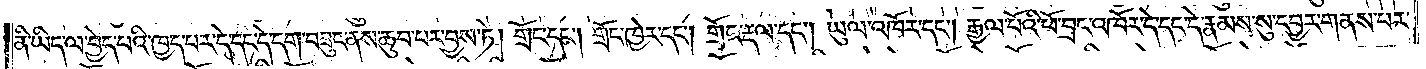ནི་ཡིད་ལ་བྱེད་པའི་ཁྱད་པར་དེ་དང་དེ་དག་བཟུང་ནས་ཆུབ་པར་བྱས་ཏེ། གྲོང་དང༌། གྲོང་ཁྱེར་དང༌། གྲོང་རྡལ་དང༌། ཡུལ་འཁོར་དང༌། རྒྱལ་པོའི་ཕོ་བྲང་འཁོར་དེ་དང་དེ་རྣམས་སུ་དབྱར་གནས་པར་
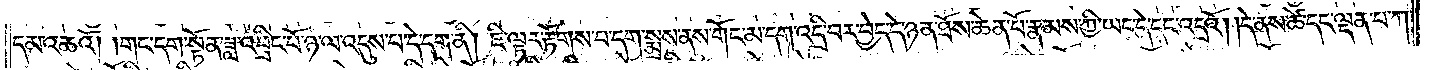དམ་འཆའོ། །གང་དག་སྟོན་ཟླ་འབྲིང་པོ་ཉ་ལ་འདུས་པ་དེ་དག་ནི། ཇི་ལྟར་རྟོགས་པ་དག་སྨྲས་ནས་གོང་མ་དག་འདྲི་བར་བྱེད་དེ་ཉན་ཐོས་ཆེན་པོ་རྣམས་ཀྱི་ཡང་དེ་དང་འདྲའོ། །དེ་ནས་ཚེ་དང་ལྡན་པ་ཀ་
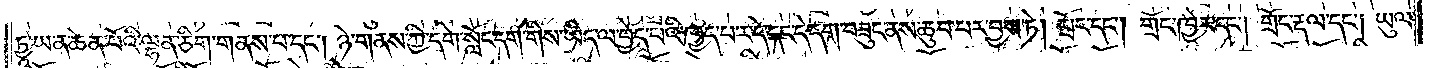ཏྱཱ་ཡ་ན་ཆེན་པོའི་ལྷན་ཅིག་གནས་པ་དང༌། ཉེ་གནས་ཀྱི་དགེ་སློང་དག་གིས་ཡིད་ལ་བྱེད་པའི་ཁྱད་པར་དེ་དང་དེ་དག་བཟུང་ནས་ཆུབ་པར་བྱས་ཏེ། གྲོང་དང༌། གྲོང་ཁྱེར་དང༌། གྲོང་རྡལ་དང༌། ཡུལ་
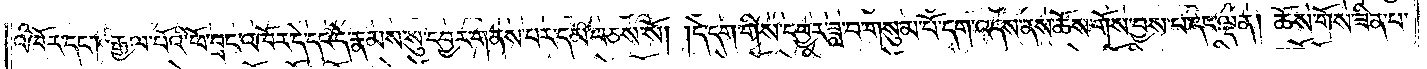འཁོར་དང༌། རྒྱལ་པོའི་ཕོ་བྲང་འཁོར་དེ་དང་དེ་རྣམས་སུ་དབྱར་གནས་པར་དམ་བཅས་སོ། །དེ་དག་གིས་དབྱར་ཟླ་བ་གསུམ་པོ་དག་འདས་ནས་ཆོས་གོས་བྱས་པ་དང་ལྡན། ཆོས་གོས་ཟིན་པ་
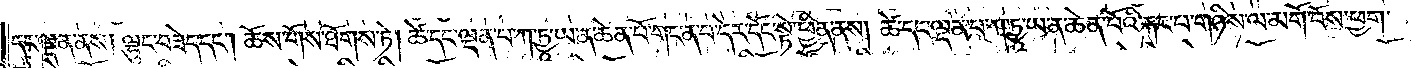དང་ལྡན་ནས། ལྷུང་བཟེད་དང༌། ཆོས་གོས་ཐོགས་ཏེ། ཚེ་དང་ལྡན་པ་ཀ་ཏྱཱ་ཡ་ན་ཆེན་པོ་གང་ན་བ་དེར་དོང་སྟེ་ཕྱིན་ནས། ཚེ་དང་ལྡན་པ་ཀ་ཏྱཱ་ཡ་ན་ཆེན་པོའི་རྐང་པ་གཉིས་ལ་མགོ་བོས་ཕྱག་
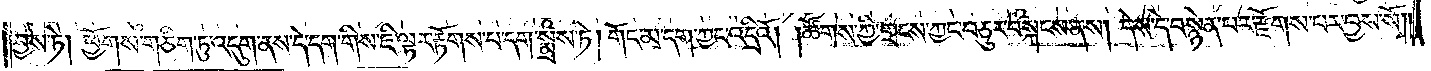བྱས་ཏེ། ཕྱོགས་གཅིག་ཏུ་འདུག་ནས་དེ་དག་གིས་ཇི་ལྟར་རྟོགས་པ་དག་སྨྲས་ཏེ། གོང་མ་དག་ཀྱང་འདྲིའོ། །ཚོགས་ཀྱི་གྲངས་ཀྱང་བཅུར་བསྐངས་ནས། དེས་དེ་བསྙེན་པར་རྫོགས་པར་བྱས་སོ༎
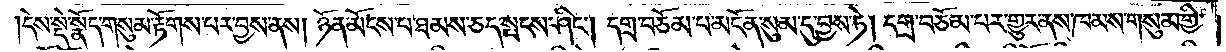དེས་སྡེ་སྣོད་གསུམ་རྟོགས་པར་བྱས་ནས། ཉོན་མོངས་པ་ཐམས་ཅད་སྤངས་ཤིང༌། དགྲ་བཅོམ་པ་མངོན་སུམ་དུ་བྱས་ཏེ། དགྲ་བཅོམ་པར་གྱུར་ནས་ཁམས་གསུམ་གྱི་
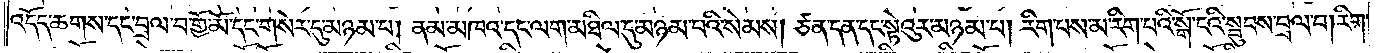འདོད་ཆགས་དང་བྲལ་བ་གྱོ་མོ་དང་གསེར་དུ་མཉམ་པ། ནམ་མཁའ་དང་ལག་མཐིལ་དུ་མཉམ་པའི་སེམས། ཙན་དན་དང་སྟེའུར་མཉམ་པ། རིག་པས་མ་རིག་པའི་སྒོ་ངའི་སྦུབས་བྲལ་བ། རིག་
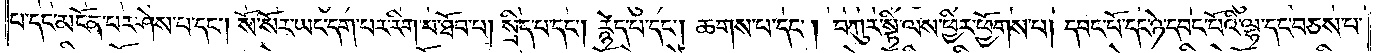པ་དང་མངོན་པར་ཤེས་པ་དང༌། སོ་སོར་ཡང་དག་པར་རིག་པ་ཐོབ་པ། སྲིད་པ་དང༌། རྙེད་པ་དང༌། ཆགས་པ་དང༌། བཀུར་སྟི་ལས་ཕྱིར་ཕྱོགས་པ། དབང་པོ་དང་ཉེ་དབང་པོའི་ལྷ་དང་བཅས་པ་
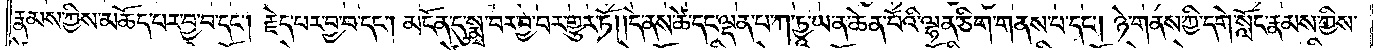རྣམས་ཀྱིས་མཆོད་པར་བྱ་བ་དང༌། རྗེད་པར་བྱ་བ་དང༌། མངོན་དུ་སྨྲ་བར་བྱ་བར་གྱུར་ཏོ། །དེ་ནས་ཚེ་དང་ལྡན་པ་ཀ་ཏྱཱ་ཡ་ན་ཆེན་པོའི་ལྷན་ཅིག་གནས་པ་དང༌། ཉེ་གནས་ཀྱི་དགེ་སློང་རྣམས་ཀྱིས་
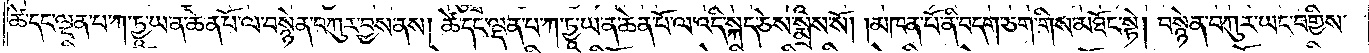ཚེ་དང་ལྡན་པ་ཀ་ཏྱཱ་ཡ་ན་ཆེན་པོ་ལ་བསྙེན་བཀུར་བྱས་ནས། ཚེ་དང་ལྡན་པ་ཀ་ཏྱཱ་ཡ་ན་ཆེན་པོ་ལ་འདི་སྐད་ཅེས་སྨྲས་སོ། །མཁན་པོ་ནི་བདག་ཅག་གིས་མཐོང་སྟེ། བསྙེན་བཀུར་ཡང་བགྱིས་
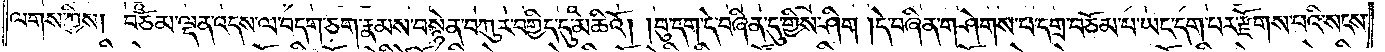ལགས་ཀྱིས། བཅོམ་ལྡན་འདས་ལ་བདག་ཅག་རྣམས་བསྙེན་བཀུར་བགྱིད་དུ་མཆིའོ། །བུ་དག་དེ་བཞིན་དུ་གྱིས་ཤིག །དེ་བཞིན་གཤེགས་པ་དགྲ་བཅོམ་པ་ཡང་དག་པར་རྫོགས་པའི་སངས་
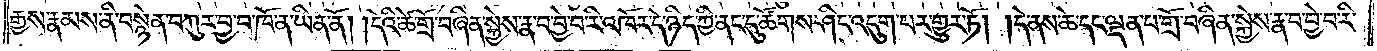རྒྱས་རྣམས་ནི་བསྙེན་བཀུར་བྱ་བ་ཁོ་ན་ཡིན་ནོ། །དེའི་ཚེ་གྲོ་བཞིན་སྐྱེས་རྣ་བ་བྱེ་བ་རི་འཁོར་དེ་ཉིད་ཀྱི་ནང་དུ་ཚོགས་ཤིང་འདུག་པར་གྱུར་ཏོ། །དེ་ནས་ཚེ་དང་ལྡན་པ་གྲོ་བཞིན་སྐྱེས་རྣ་བ་བྱེ་བ་རི་
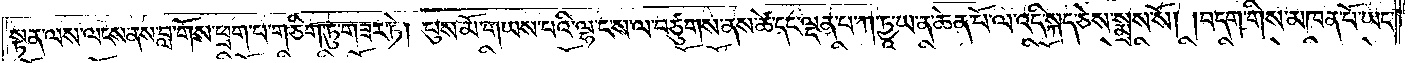སྟན་ལས་ལངས་ནས་བླ་གོས་ཕྲག་པ་གཅིག་ཏུ་གཟར་ཏེ། པུས་མོ་གཡས་པའི་ལྷ་ང་ས་ལ་བཙུགས་ནས་ཚེ་དང་ལྡན་པ་ཀ་ཏྱཱ་ཡ་ན་ཆེན་པོ་ལ་འདི་སྐད་ཅེས་སྨྲས་སོ། །བདག་གིས་མཁན་པོ་ཡང་
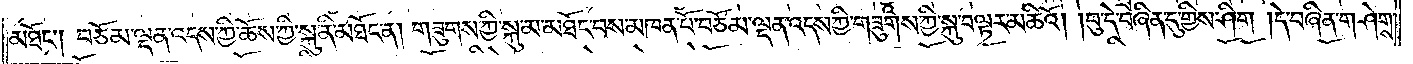མཐོང༌། བཅོམ་ལྡན་འདས་ཀྱི་ཆོས་ཀྱི་སྐུ་ནི་མཐོང་ན། གཟུགས་ཀྱི་སྐུ་མ་མཐོང་བས་མཁན་པོ་བཅོམ་ལྡན་འདས་ཀྱི་གཟུགས་ཀྱི་སྐུ་བལྟར་མཆིའོ། །བུ་དེ་བཞིན་དུ་གྱིས་ཤིག །དེ་བཞིན་གཤེགས་
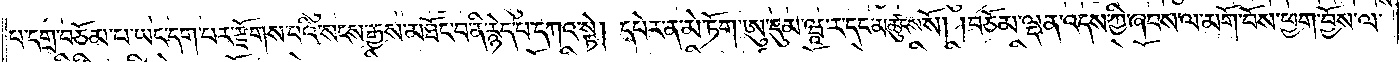པ་དགྲ་བཅོམ་པ་ཡང་དག་པར་རྫོགས་པའི་སངས་རྒྱས་མཐོང་བ་ནི་རྙེད་པ་དཀའ་སྟེ། དཔེར་ན་མེ་ཏོག་ཨུ་དུམ་ཝཱ་ར་དང་མཚུངས་སོ། །བཅོམ་ལྡན་འདས་ཀྱི་ཞབས་ལ་མགོ་བོས་ཕྱག་བྱོས་ལ་
